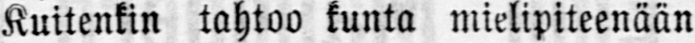Kuitenkin tahtoo kunta mielipiteenään
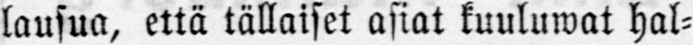lausua, että tällaiset asiat kuuluwat hal-
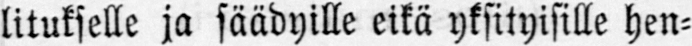litukselle ja säädyille eikä yksityisille hen-
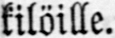kilöille.
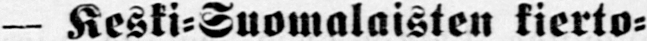— Keski-Suomalaisten kierto-
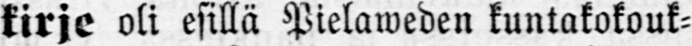kirje oli esillä Pielaweden kuntakokouk-
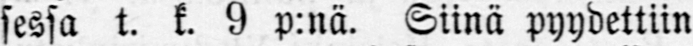sessa t. k. 9 p:nä. Siinä pyydettiin
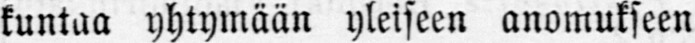kuntaa yhtymään yleiseen anomukseen
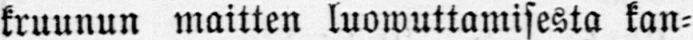kruunun maitten luowuttamisesta kan-
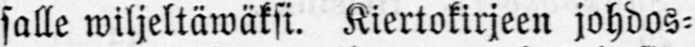salle wiljeltäwäksi. Kiertokirjeen johdos-
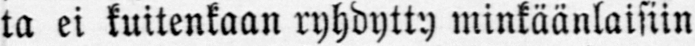ta ei kuitenkaan ryhdytty minkäänlaisiin
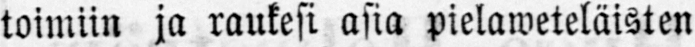toimiin ja raukesi asia pielaweteläisten
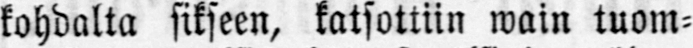kohdalta sikseen, katsottiin wain tuom-
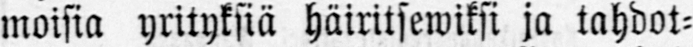moisia yrityksiä häiritsewiksi ja tahdot-
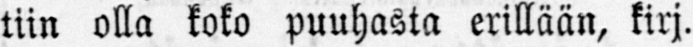tiin olla koko puuhasta erillään, kirj.
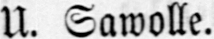U. Sawolle.
